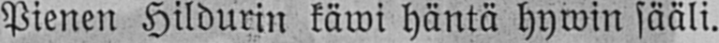Pienen Hildurin käwi häntä hywin sääli.
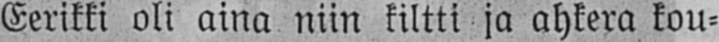Eerikki oli aina niin kiltti ja ahkera kou-
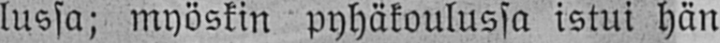lussa; myöskin pyhäkoulussa istui hän
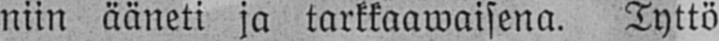niin ääneti ja tarkkaawaisena. Tyttö
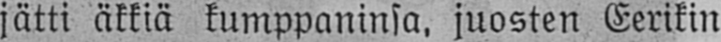jätti äkkiä kumppaninsa, juosten Eerikin
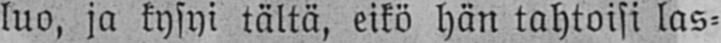luo, ja kysyi tältä, eikö hän tahtoisi las-
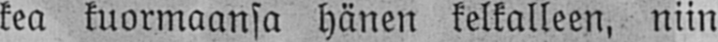kea kuormaansa hänen kelkalleen, niin
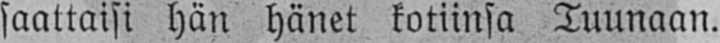saattaisi hän hänet kotiinsa Tuunaan.
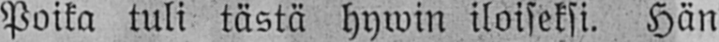Poika tuli tästä hywin iloiseksi. Hän
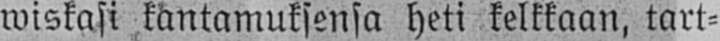wiskasi kantamuksensa heti kelkkaan, tart-
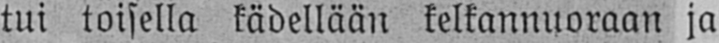tui toisella kädellään kelkannuoraan ja
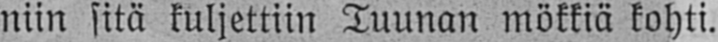niin sitä kuljettiin Tuunan mökkiä kohti.
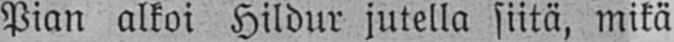Pian alkoi Hildur jutella siitä, mikä
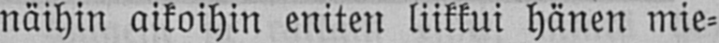näihin aikoihin eniten liikkui hänen mie-
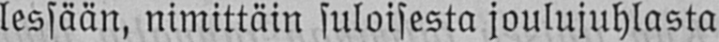lessään, nimittäin suloisesta joulujuhlasta
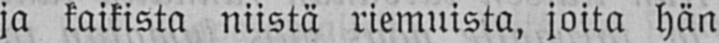ja kaikista niistä riemuista, joita hän
